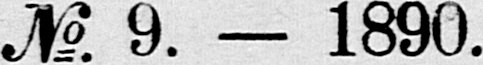№ 9. — 1890.
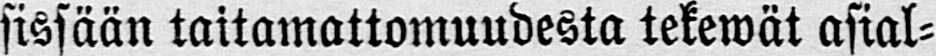sissään taitamattomuudesta tekewät asial-
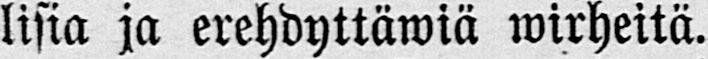lisia ja erehdyttäwiä wirheitä.
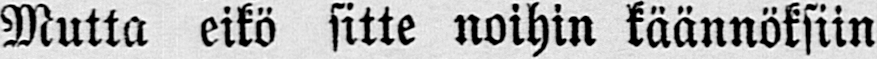Mutta eikö sitte noihin käännöksiin
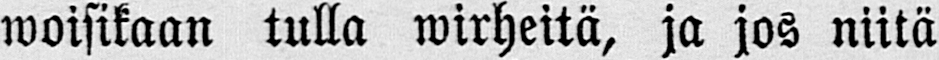woisikaan tulla wirheitä, ja jos niitä
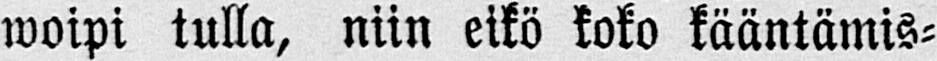woipi tulla, niin eikö koko kääntämis-
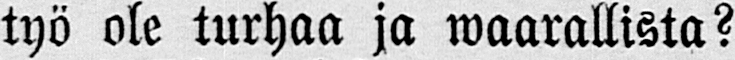työ ole turhaa ja wäärällistä?
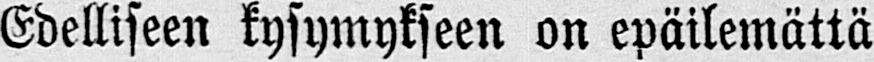Edelliseen kysymykseen on epäilemättä
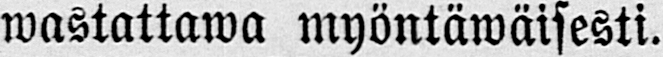wastattawa myöntäwäisesti.
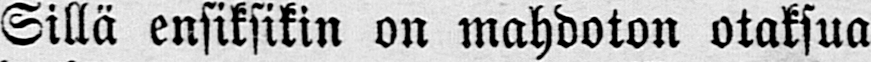Sillä ensiksikin on mahdoton otaksua
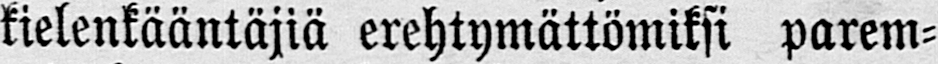kielenkääntäjiä erehtymättömiksi parem-
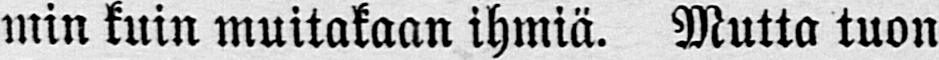min kuin muitakaan ihmiä. Mutta tuon
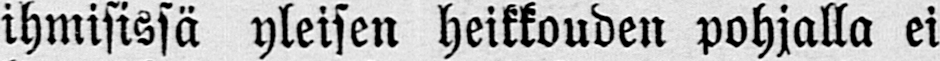ihmisissä yleisen heikkouden pohjalla ei
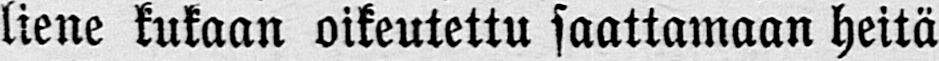liene kukaan oikeutettu saattamaan heitä
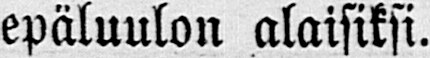epäluulon alaisiksi.
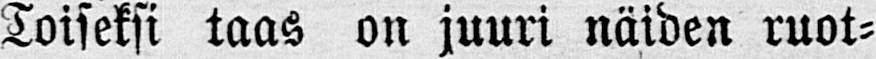Toiseksi taas on juuri näiden ruot-
